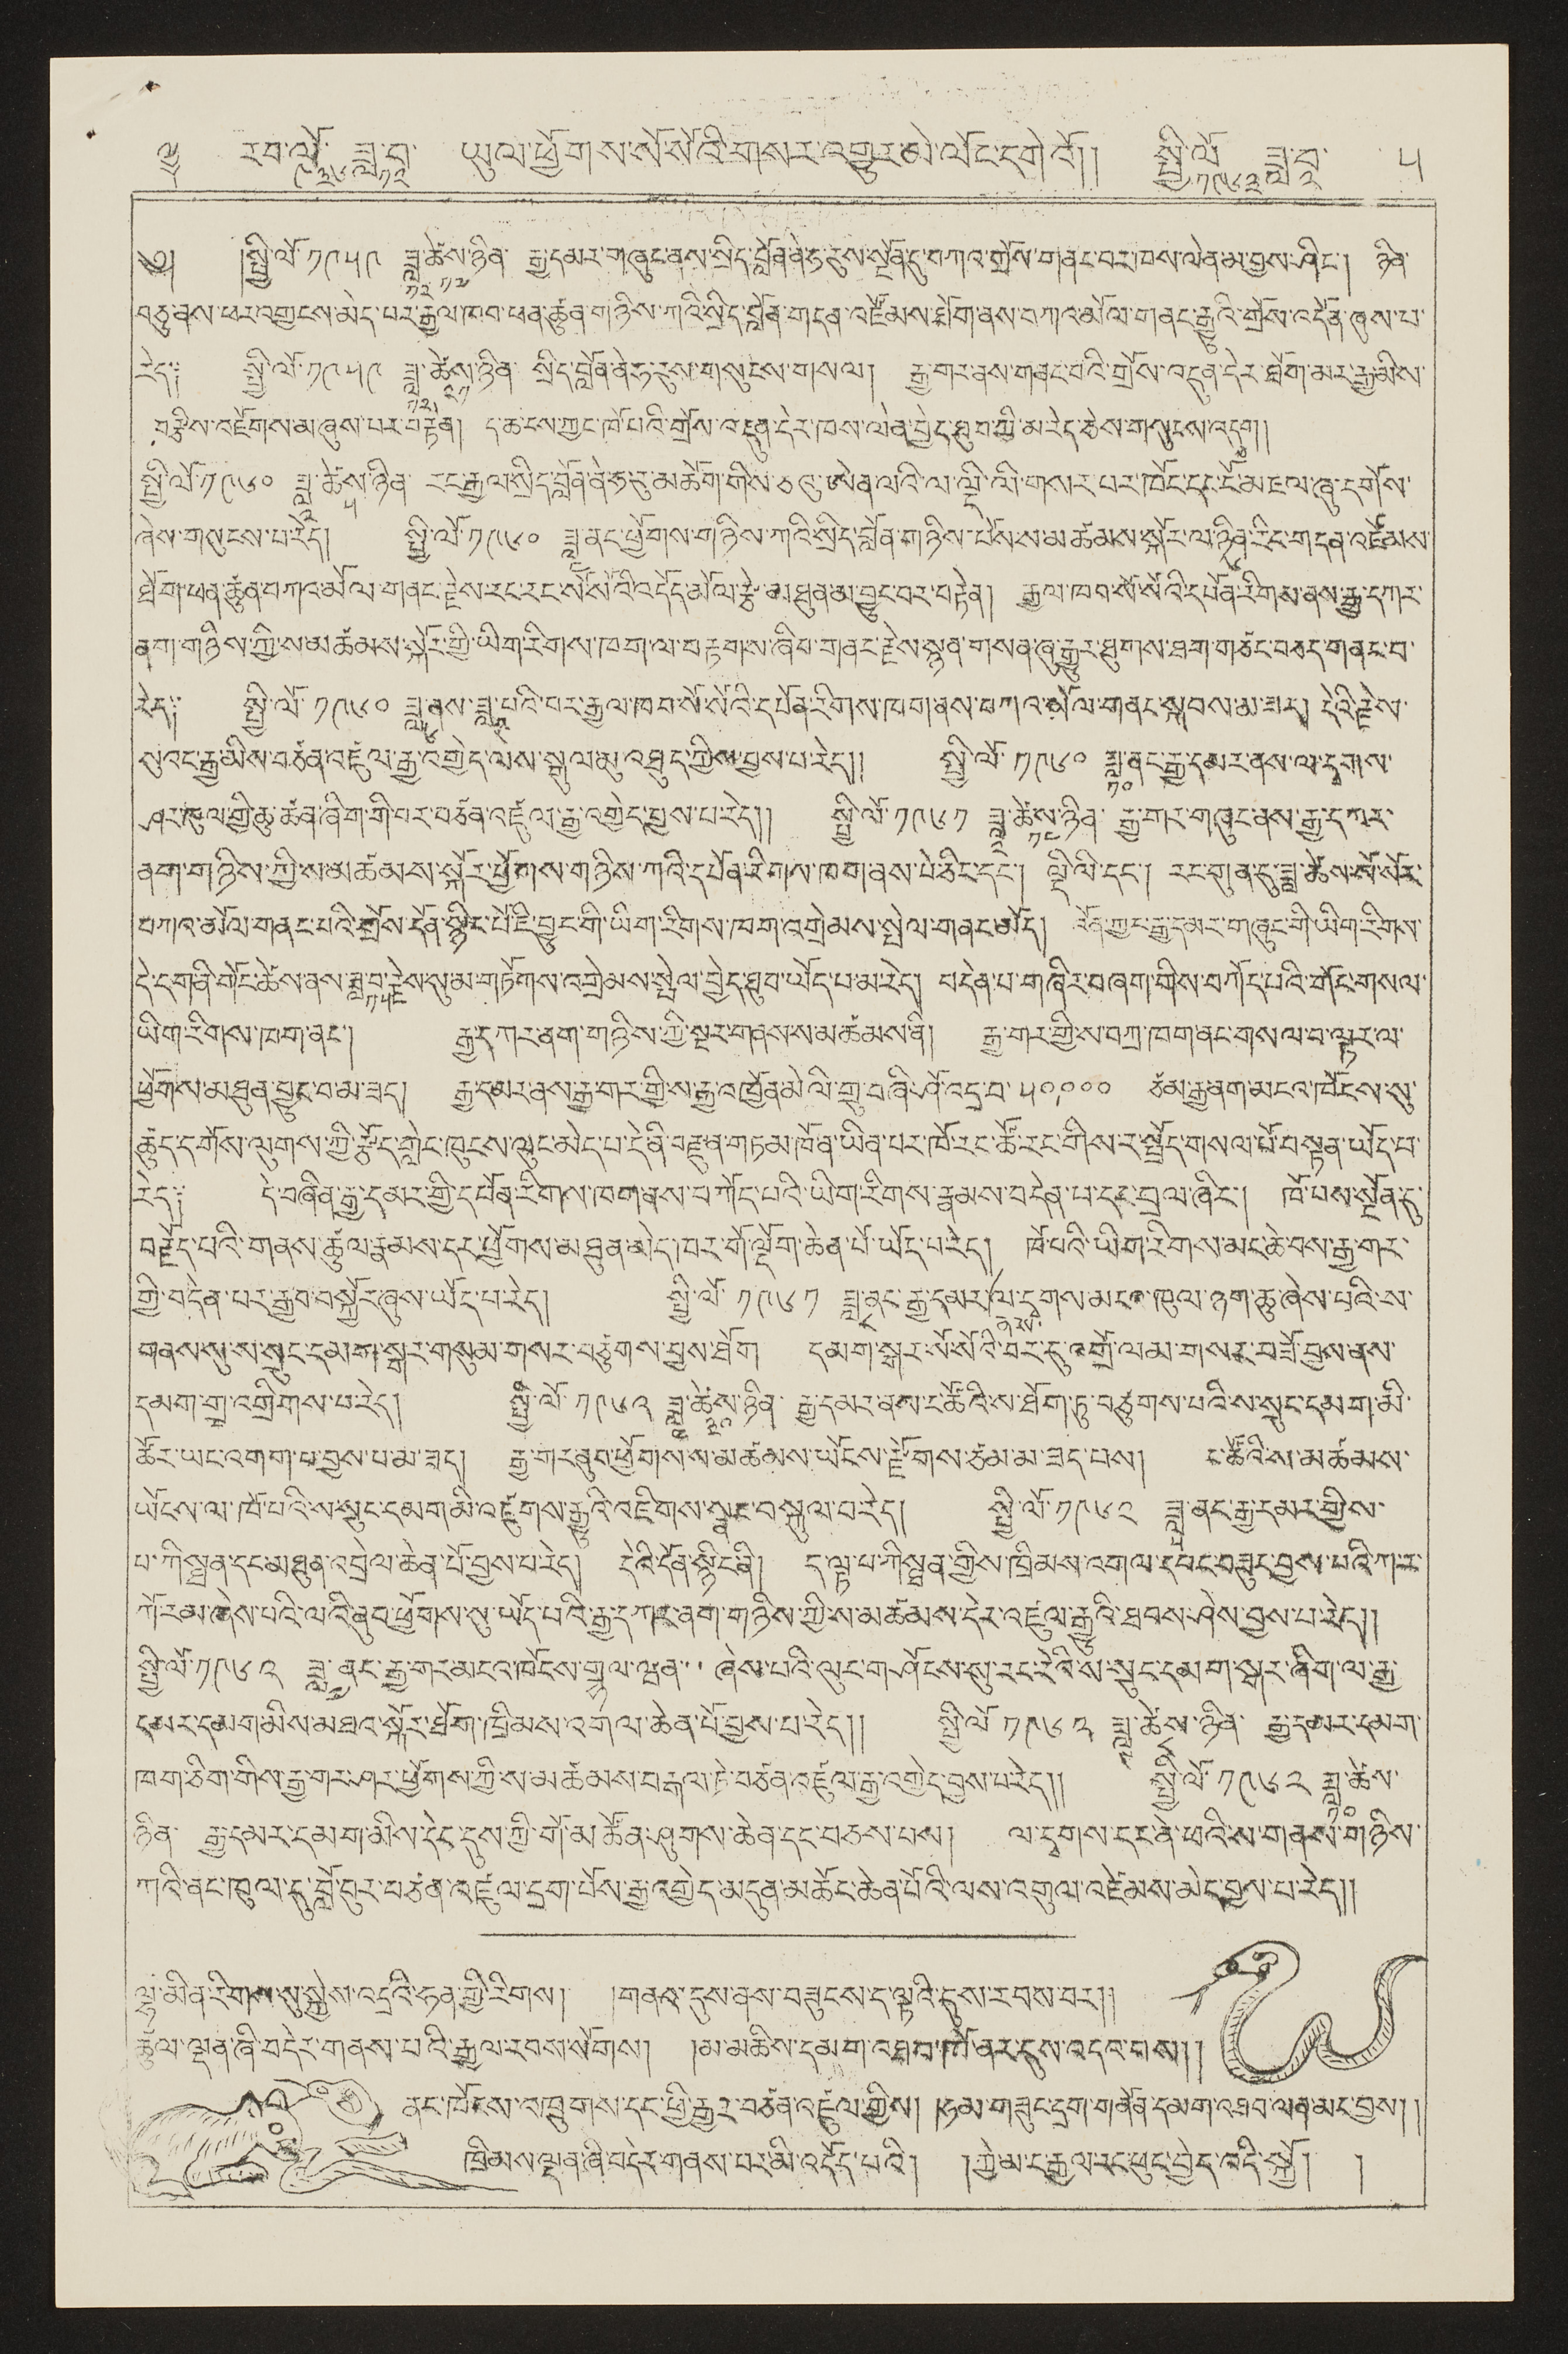༈ རབ་ལོ་
༩༣༦
ཟླ་བ་
༡༢
ཡུལ་ཕྱོགས་སོ་སོའི་གསར་འགྱུར་མེ་ལོང་དགེའོ།། སྤྱི་ལོ་
༡༩༦༣
ཟླ་བ་
༢
༥
༄། །སྤྱི་ལོ་ ༡༩༥༩ ཟླ་
༡༢
ཚེས་
༡༧
ཉིན་རྒྱ་དམར་གཞུང་ནས་སྲིད་བློན་ནེ་ཧ་རུས་སྔོན་དུ་བཀའ་གྲོས་གནང་བར་ཁས་ལེན་མ་བྱས་ཤིང་། ཉིན་
བཅུ་ནས་ཕར་འགྱངས་མེད་པར་རྒྱལ་ཁབ་ཕན་ཚུན་གཉིས་ཀའི་སྲིད་བློན་གདན་འཛོམས་ཐོག་ནས་བཀའ་མོལ་གནང་རྒྱུའི་གྲོས་འདོན་ཞུས་པ་
རེད༑ སྤྱི་ལོ་ ༡༩༥༩ ཟླ་
༡༢
ཚེས་
༢༡
ཉིན་ སྲིད་བློན་ནེ་ཧེ་རུས་གསུངས་གསལ། རྒྱ་གར་ནས་གནང་བའི་གྲོས་འདུན་དེར་ཐོག་མར་རྒྱ་མིས་
བརྩིས་འཇོགས་མ་ཞུས་པར་བརྟེན། ད་ཆ་ངས་ཀྱང་ཁོ་པའི་གྲོས་འདུན་དེར་ཁས་ལེན་བྱེད་ཐུབ་ཀྱི་མ་རེད་ཅེས་གསུངས་འདུག།
སྤྱི་ལོ་ ༡༩༦༠ ཟླ་
༢
ཚེས་
༥
ཉིན་ རང་རྒྱལ་སྲིད་བློན་ནེ་ཧ་རུ་མཆོག་གིས་ཅའུ་ཨེན་ལའི་ལ་ལྡི་ལི་གསར་པར་ཁོང་དང་ངོ་མཇལ་ཞུ་དགོས་
ཞེས་གསུངས་པ་རེད། སྤྱི་ལོ་ ༡༩༦༠ ཟླ་
༤
ནང་ཕྱོགས་གཉིས་ཀའི་སྲིད་བློན་གཉིས་པོས་ས་མཚམས་སྐོར་ལ་ཉིན་
༦
རིང་གདན་འཛོམས་
ཐོག་ཕན་ཚུན་བཀའ་མོལ་གནང་རྗེས་རང་རང་སོ་སོའི་འདོན་མོལ་རྩེ་མཐུན་མ་བྱུང་བར་བརྟེན། རྒྱལ་ཁབ་སོ་སོའི་དཔོན་རིགས་ནས་རྒྱ་དཀར་
ནག་གཉིས་ཀྱི་ས་མཚམས་སྐོར་གྱི་ཡིག་རིགས་ཁག་ལ་བརྟགས་ཞིབ་གནང་རྗེས་སྙན་གསན་ཞུ་རྒྱུར་ཐུགས་ཐག་གཅོང་བཅད་གནང་བ་
རེད༑ སྤྱི་ལོ་ ༡༩༦༠ ཟླ་
༦
ནས་ཟླ་
༩
པའི་བར་རྒྱལ་ཁབ་སོ་སོའི་དཔོན་རིགས་ཁག་ནས་བཀའ་མོལ་གནང་སྐབས་མ་ཟད། དེའི་རྗེས་
སུའང་རྒྱ་མིས་བཙན་འཛུལ་རྒྱ་འགྱེད་ལས་སྒུལ་མུ་འཐུད་ཀྱིས་བྱས་པ་རེད།། སྤྱི་ལོ་ ༡༩༦༠ ཟླ་
༡༠
ནང་རྒྱ་དམར་ནས་ལ་དྭགས་
ཤར་ཁུལ་གྱི་ཆུ་ཚན་ཞིག་གི་བར་བཙན་འཛུལ་རྒྱ་འགྱེད་བྱས་པ་རེད།། སྤྱི་ལོ་ ༡༩༦༡ ཟླ་
༢
ཚེས་
༡༤
ཉིན་རྒྱ་གར་གཞུང་ནས་རྒྱ་དཀར་
ནག་གཉིས་ཀྱིས་མཚམས་སྐོར་ཕྱོགས་གཉིས་ཀའི་དཔོན་རིགས་ཁག་ནས་པེ་ཅིང་དང་། ལྡི་ལི་དང་། རང་གུན་དུ་ཟླ་ཚེས་སོ་སོར་
བཀའ་མོལ་གནང་པའི་བྲོས་དོན་སྙིང་པོ་ཇི་བྱུང་གི་ཡིག་རིགས་ཁག་འགྲེམས་སྤེལ་གནང་མདོ། འོན་ཀྱང་རྒྱ་དམར་གཞུང་གི་ཡིག་རིགས་
དེ་དག་ནི་གོང་ཚེས་ནས་ཟླ་བ་
༡༥
རྗེས་སུ་མ་གཏོགས་འགྲེམས་སྤེལ་བྱེད་ཐུབ་ཡོད་པ་མ་རེད་། བདེན་པ་བཞིར་བཞག་གིས་བཀོད་པའི་གོང་གསལ་
ཡིག་རིགས་ཁག་ནང་། རྒྱ་དཀར་ནག་གཉིས་ཀྱི་སྔར་གནས་ས་མཚམས་ནི། རྒྱ་གར་གྱི་ས་བཀྲ་ཁག་ནང་གསལ་བ་ལྟར་ལ་
ཕྱོགས་མཐུན་བྱུང་བ་མ་ཟད། རྒྱ་དམར་ནས་རྒྱ་གར་གྱི་ས་རྒྱ་འཁྱོན་མེ ལི་གྲུ་བཞི་ཤོ་འདྲ་བ་ ༥༠,༠༠༠ ཙམ་རྒྱ་ནག་མངའ་ཁོངས་སུ་
ཚུད་དགོས་ལུགས་ཀྱི་རྩོད་གླེང་ཁུངས་ལུང་མེད་པ་དེ་ནི་བརྫུན་གཏམ་ཁོ་ན་ཡིན་པར་ཁོ་རང་ཚོ་རང་གིས་ར་སྤྲོད་གསལ་པོ་བསྟན་ཡོད་པ་
རེད༑ དེ་བཞིན་རྒྱ་དམར་གྱི་དཔོན་རིགས་ཁག་ནས་བཀོད་པའི་ཡིག་རིགས་རྣམས་བདེན་པ་དང་བྲལ་ཞིང་། ཁོ་པས་སྔོན་དུ་
བརྗོད་པའི་གནས་ཚུལ་རྣམས་དར་ཕྱོགས་མཐུན་མེད་ཁར་གོ་ལྡོག་ཆེན་པོ་ཡོད་པ་རེད། ཁོ་པའི་ཡིག་རིགས་མང་ཆེ་བས་རྒྱ་གར་
གྱི་བདེན་པར་རྒྱབ་བསྐྱོར་ཞུས་ཡོད་པ་རེད། སྤྱི་ལོ་ ༡༩༦༡ ཟླ་
༨
ནང་རྒྱ་དམར་
ནས་
ལ་དྭགས་མངའ་ཁུལ་ཉག་ཆུ་ཞེས་པའི་ས་
གནས་སུ་ས་སྲུང་དམག་སྒར་གསུམ་གསར་བཙུགས་བྱས་ཐོག དམག་སྒར་སོ་སོའི་བར་དུ་འགྲོ་ལམ་གསར་བཟོ་བྱས་ནས་
དམག་གྲྭ་འགྲིགས་པ་རེད། སྤྱི་ལོ་ ༡༩༦༢ ཟླ་
༤
ཚེས་
༣༠
ཉིན་ རྒྱ་དམར་ནས་ང་ཚོའི་ས་ཐོག་ཏུ་བཙུགས་པའི་ས་སྲུང་དམག་མི་
ཚོར་ཡང་འགག་པ་བྱས་པ་མ་ཟད། རྒྱ་གར་ནུབ་ཕྱོགས་ས་མཚམས་ཡོངས་རྫོགས་ཙམ་མ་ཟད་པས། ང་ཚོའི་ས་མཚམས་
ཡོངས་ལ་ཁོ་བའི་ས་སྲུང་དམག་མི་འཛུགས་རྒྱུའི་འཇིགས་སྣང་བསྐུལ་བ་རེད། སྤྱི་ལོ་ ༡༩༦༢ ཟླ་
༥
ནང་རྒྱ་དམར་གྱིས་
པ་ཀིསྠན་དང་མཐུན་འབྲེལ་ཆེན་པོ་བྱས་པ་རེད། དེའི་དོན་སྙིང་ནི། ད་ལྟ་པ་ཀིསྠན་གྱིས་ཁྲིམས་འགལ་དབང་བཟུང་བྱས་པའི་ཀ་ར་
གོ་རམ་ཞེས་པའི་ལའི་ནུབ་ཕྱོགས་སུ་ཡོད་པའི་རྒྱ་དཀར་ནག་གཉིས་ཀྱི་ས་མཚམས་དེར་འཛུལ་རྒྱུའི་ཐབས་ཤེས་བྱས་པ་རེད།།
སྤྱི་ལོ་ ༡༩༦༢ ཟླ་
༤
ནང་རྒྱ་གར་མངའ་ཁོངས་གྷལ་ཝན་་ཞེས་པའི་ལུང་གཤོངས་སུ་རང་རེའི་ས་སྲུང་དམག་སྒར་ཞིག་ལ་རྒྱ་
དམར་དམག་མིས་མཐའ་སྐོར་ཐོག་ཁྲིམས་འགལ་ཆེན་པོ་བྱས་པ་རེད།། སྤྱི་ལོ་ ༡༩༦༢ ཟླ་
༩
ཚེས་
༨
ཉིན་ རྒྱ་དམར་དམག་
ཁག་ཅིག་གིས་རྒྱ་གར་ཤར་ཕྱོགས་ཀྱི་མ་མཚམས་བརྒལ་ཏེ་བཙན་འཛུལ་རྒྱ་འགྱེད་བྱས་པ་རེད།། སྤྱི་ལོ་ ༡༩༦༢ ཟླ་
༡༠
ཚེས་
ཉིན་ རྒྱ་དམར་དམག་མིས་དེང་དུས་ཀྱི་གོ་མཚོན་ཤུགས་ཆེན་དང་བཅས་པས། ལ་དྭགས་དར་ནེ་ཕའི་ས་གནས་གཉིས་
ཀའི་ནང་ཁུལ་དུ་བློ་བུར་བཙན་འཛུལ་དྲག་པོས་རྒྱ་འགྱེད་མདུན་མཆོང་ཆེན་པོའི་ལས་འགུལ་འཛེམས་མེད་བྱས་པ་རེད།།
ལྷ་མིན་རིགས་སུ་སྐྱེས་འདྲའི་ཧན་གྱི་རིགས། །གནའ་དུས་ནས་བཟུངས་ད་ལྟའི་དུས་རབས་བར།།
ཚུལ་ལྡན་ཞི་བདེར་གནས་པའི་རྒྱལ་རབས་སོགས། །མ་མཆིས་དམག་འཐབ་ཁོ་ནར་དུས་འདའ་བས།།
ནང་ཁོངས་འཁྲུགས་དང་ཕྱི་རྒྱར་བཙན་འཛུལ་གྱིས། །ཧམ་གཟུང་དྲག་གནོན་དམག་འཐབ་ལན་མང་བྱས།།
ཁྲིམས་ལྡན་ཞི་བདེར་གནས་པར་མི་འདོད་པའི། །ཀྱེ་མ་ང་རྒྱལ་རང་ཕུང་བྱེད་འདི་སྐྱོ། །
